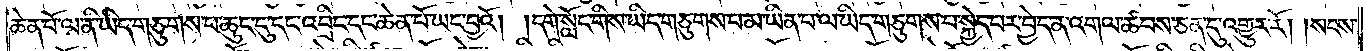ཆེན་པོ་ལ་ནི་ཡིད་གཅུགས་པ་ཆུང་ངུ་དང་འབྲིང་དང་ཆེན་པོ་ཡང་བྱའོ། །དགེ་སློང་གིས་ཡིད་གཅུགས་པ་མ་ཡིན་པ་ལ་ཡིད་གཅུགས་པ་སྐྱེད་པར་བྱེད་ན་འགལ་ཚབས་ཅན་དུ་འགྱུར་རོ། །སངས་
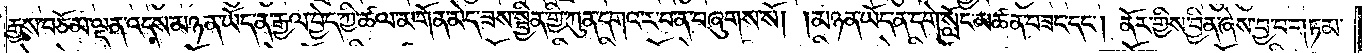རྒྱས་བཅོམ་ལྡན་འདས་མཉན་ཡོད་ན་རྒྱལ་བྱེད་ཀྱི་ཚལ་མགོན་མེད་ཟས་སྦྱིན་གྱི་ཀུན་དགའ་ར་བ་ན་བཞུགས་སོ། །མཉན་ཡོད་ན་དགེ་སློང་མཚན་བཟང་དང༌། ནོར་གྱིས་བྱིན་ཞེས་བྱ་བ་གཏམ་
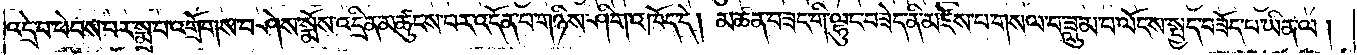འདྲེ་བ་ཕེབས་པར་སྨྲ་བ་འགྲོགས་བཤེས་སྨོས་འདྲིན་མཚུངས་པར་འདོན་པ་གཉིས་ཤིག་འཁོད་དེ། མཚན་བཟང་གི་ལྷུང་བཟེད་ནི་མཛེས་པ་གསལ་བ་ཟླུམ་པ་ལོངས་སྤྱོད་བཟོད་པ་ཡིན་ལ།
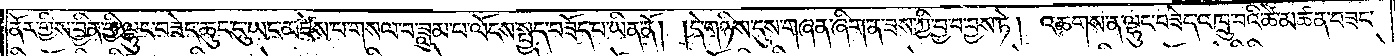ནོར་གྱིས་བྱིན་གྱི་ལྷུང་བཟེད་ཆུང་ངུ་ཡང་མཛེས་པ་གསལ་བ་ཟླུམ་པ་ལོངས་སྤྱད་བཟོད་པ་ཡིན་ནོ། །དེ་གཉིས་དུས་གཞན་ཞིག་ན་ཟས་ཀྱི་བྱ་བ་བྱས་ཏེ། འཆགས་ན་ལྷུང་བཟེད་འཁྲུ་བའི་ཚེ་མཚན་བཟང་
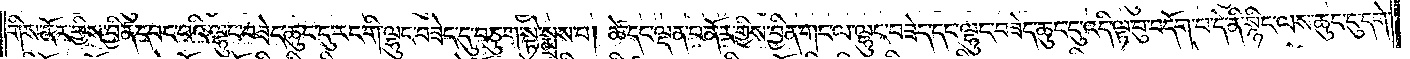གིས་ནོར་གྱིས་བྱིན་དབང་བའི་ལྷུང་བཟེད་ཆུང་ངུ་རང་གི་ལྷུང་བཟེད་དུ་བཅུག་སྟེ་སྨྲས་པ། ཚེ་དང་ལྡན་པ་ནོར་གྱིས་བྱིན་གང་ལ་ལྷུང་བཟེད་དང་ལྷུང་བཟེད་ཆུང་ངུ་འདི་ལྟ་བུ་བདོག་པ་དེ་ནི་སྙིང་ལས་ཆུང་ངུ་དགེ་
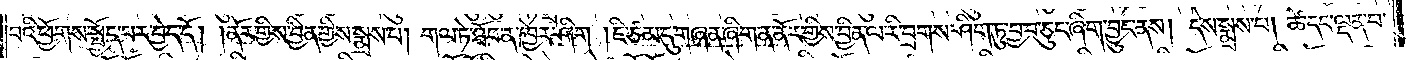བའི་ཕྱོགས་སྤྱོད་པར་བྱེད་དོ། །ནོར་གྱིས་བྱིན་གྱིས་སྨྲས་པ། གལ་ཏེ་ཐོབ་ན་ཁྱེར་ཤིག །ཇི་ཙམ་དུ་གཞན་ཞིག་ན་ནོར་གྱིས་བྱིན་ལ་རི་བྲགས་ཤིག་ཏུ་བྱ་བ་ཅུང་ཞིག་བྱུང་ནས། དེས་སྨྲས་པ། ཚེ་དང་ལྡན་པ་
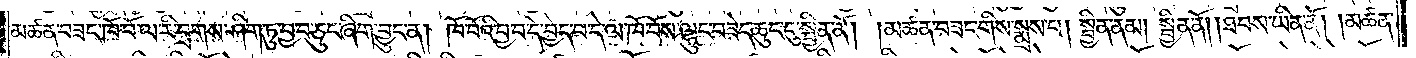མཚན་བཟང་ཁོ་བོ་ལ་རི་བྲགས་ཤིག་ཏུ་བྱ་བ་ཅུང་ཞིག་བྱུང་ན། ཁོ་བོའི་བྱ་བ་དེ་བྱེད་པ་དེ་ལ་ཁོ་བོས་ལྷུང་བཟེད་ཆུང་ངུ་སྦྱིན་ནོ། །མཚན་བཟང་གིས་སྨྲས་པ། སྦྱིན་ནམ། སྦྱིན་ནོ། །ཐབས་ཡིན་ནོ། །མཚན་
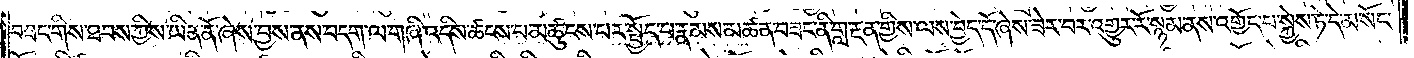བཟང་གིས་ཐབས་ཀྱིས་ཡིན་ནོ་ཞེས་བྱས་ནས་བདག་ལ་གཞི་འདིས་ཚངས་པ་མཚུངས་པར་སྤྱོད་པ་རྣམས་མཚན་བཟང་ནི་གླ་རྔན་གྱིས་ལས་བྱེད་དོ་ཞེས་ཟེར་བར་འགྱུར་རོ་སྙམ་ནས་འགྱོད་པ་སྐྱེས་ཏེ་མ་སོང་
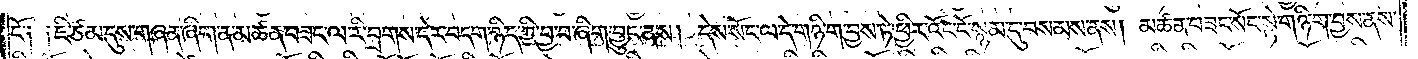ངོ༑ ༑ཇི་ཙམ་དུས་གཞན་ཞིག་ན་མཚན་བཟང་ལ་རི་བྲགས་དེར་བདག་ཉིད་ཀྱི་བྱ་བ་ཞིག་བྱུང་ནས། དེས་སོང་ལ་དེ་གཉི་ག་བྱས་ཏེ་ཕྱིར་འོང་ངོ་སྙམ་དུ་བསམས་ནས། མཚན་བཟང་སོང་སྟེ་གཉི་ག་བྱས་ནས་
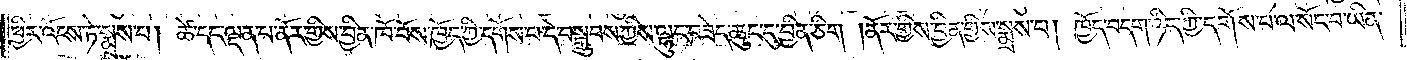ཕྱིར་འོངས་ཏེ་སྨྲས་པ། ཚེ་དང་ལྡན་པ་ནོར་གྱིས་བྱིན་ཁོ་བོས་ཁྱོད་ཀྱི་དགོས་པ་དེ་བསྒྲུབས་ཀྱིས་ལྷུང་བཟེད་ཆུང་ངུ་བྱིན་ཅིག །ནོར་གྱིས་བྱིན་གྱིས་སྨྲས་པ། ཁྱོད་བདག་ཉིད་ཀྱི་དགོས་པ་ལ་སོང་བ་ཡིན་
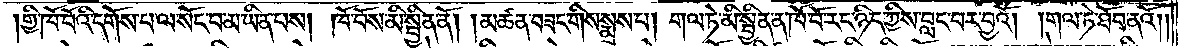།གྱི་ཁོ་བོའི་དགོས་པ་ལ་སོང་བ་མ་ཡིན་པས། ཁོ་བོས་མི་སྦྱིན་ནོ། །མཚན་བཟང་གིས་སྨྲས་པ། གལ་ཏེ་མི་སྦྱིན་ན་ཁོ་བོ་རང་ཉིད་ཀྱིས་བླང་བར་བྱའོ། །གལ་ཏེ་ཐོབ་ནའོ༎
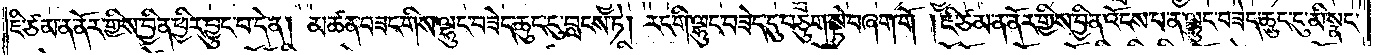ཇི་ཙམ་ན་ནོར་གྱིས་བྱིན་ཕྱིར་བྱུང་བ་དེ་ན། མཚན་བཟང་གིས་ལྷུང་བཟེད་ཆུང་ངུ་བླངས་ཏེ། རང་གི་ལྷུང་བཟེད་དུ་བཅུག་སྟེ་བཞག་གོ །ཇི་ཙམ་ན་ནོར་གྱིས་བྱིན་འོངས་པ་ན་ལྷུང་བཟེད་ཆུང་ངུ་མི་སྣང་
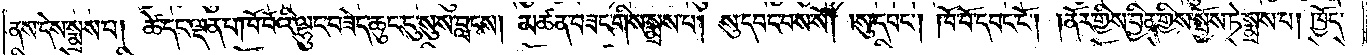ནས་དེས་སྨྲས་པ། ཚེ་དང་ལྡན་པ་ཁོ་བོའི་ལྷུང་བཟེད་ཆུང་ངུ་སུས་བླངས། མཚན་བཟང་གིས་སྨྲས་པ། སུ་དབང་བས་སོ། །སུ་དབང༌། ཁོ་བོ་དབང་ངོ༌། །ནོར་གྱིས་བྱིན་གྱིས་སྤྱོས་ཏེ་སྨྲས་པ། ཁྱོད་
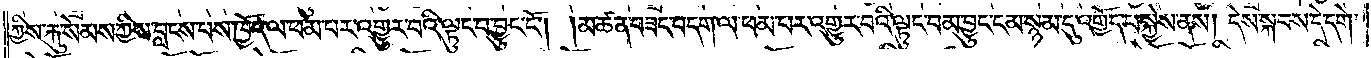ཀྱིས་རྐུ་སེམས་ཀྱིས་བླངས་པས་ཁྱོད་ལ་ཕམ་པར་འགྱུར་བའི་ལྟུང་བ་བྱུང་ངོ༌། །མཚན་བཟང་བདག་ལ་ཕམ་པར་འགྱུར་བའི་ལྟུང་བ་མ་བྱུང་ངམ་སྙམ་དུ་འགྱོད་པ་སྐྱེས་ནས། དེས་སྐབས་དེ་དགེ་
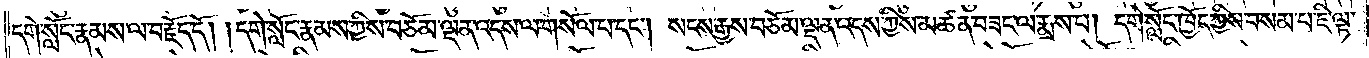དགེ་སློང་རྣམས་ལ་བརྗོད་དོ། །དགེ་སློང་རྣམས་ཀྱིས་བཅོམ་ལྡན་འདས་ལ་གསོལ་པ་དང༌། སངས་རྒྱས་བཅོམ་ལྡན་འདས་ཀྱིས་མཚན་བཟང་ལ་རྨས་པ། དགེ་སློང་ཁྱོད་ཀྱིས་བསམ་པ་ཇི་ལྟ་
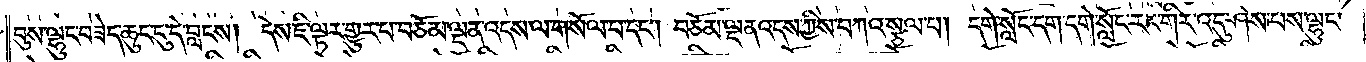བུས་ལྷུང་བཟེད་ཆུང་ངུ་དེ་བླངས། དེས་ཇི་ལྟར་གྱུར་པ་བཅོམ་ལྡན་འདས་ལ་གསོལ་པ་དང༌། བཅོམ་ལྡན་འདས་ཀྱིས་བཀའ་སྩལ་པ། དགེ་སློང་དག་དགེ་སློང་རང་གིར་འདུ་ཤེས་པས་ལྷུང་
